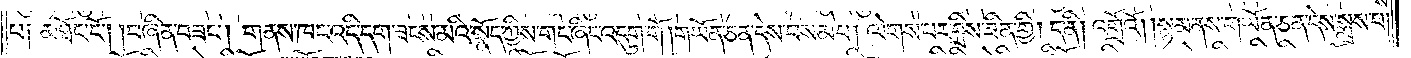པ༑ མཐོང་ངོ༌། །བཞིན་བཟང༌། གནས་ཁང་འདི་དག་ཟངས་མའི་སྣོད་ཀྱིས་གང་ཞིང་འདུག་གོ །གཡོན་ཅན་དེས་བསམ་པ། ལེགས་པར་བྲིས་ཟིན་གྱི། ད་ནི། འགྲོའོ། །སྙམ་ནས་གཡོན་ཅན་དེས་སྨྲས་པ།
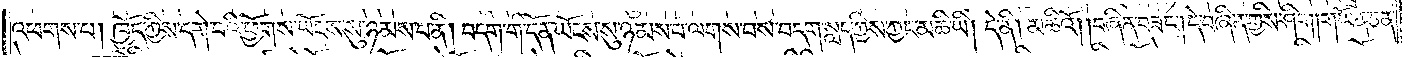འཕགས་པ། ཁྱོད་ཀྱིས་དགེ་བའི་ཕྱོགས་ཡོངས་སུ་ཉམས་པ་ནི། བདག་གི་དོན་ཡོངས་སུ་ཉམས་པ་ལགས་བས་བདག་སླད་ཀྱིས་ཀྱང་མཆི་ཡི། དེ་ནི། མཆིའོ། །བཞིན་བཟང༌། དེ་བཞིན་གྱིས་ཤིག།གཡོན་ཅན་
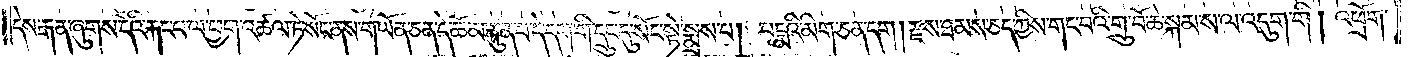དེས་རྒན་ཞུགས་དེའི་རྐང་པ་ལ་ཕྱག་འཚལ་ཏེ་སོང་ནས་གཡོན་ཅན་དེ་ཆོམ་རྐུན་པ་དེ་དག་གི་དྲུང་དུ་སོང་སྟེ་སྨྲས་པ། པདྨའི་མིག་ཅན་དག །རྫས་ཐམས་ཅད་ཀྱིས་གང་བའི་གྲུབ་བོ་ཆེ་སྐམ་ས་ལ་འདུག་གི། འཕྲོག་
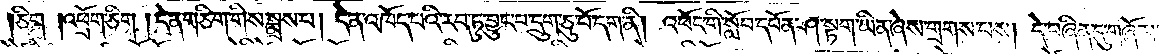ཅིག །འཕྲོག་ཅིག །དེ་ན་གཅིག་གིས་སྨྲས་པ། དེ་ན་འཁོད་པའི་རབ་ཏུ་བྱུང་བ་དྲུག་ཅུ་པོ་དག་ནི། འཕོང་གི་སློབ་དཔོན་ཤ་སྟག་ཡིན་ཞེས་གྲགས་པས། དེ་བཞིན་དུ་གཞོམ་
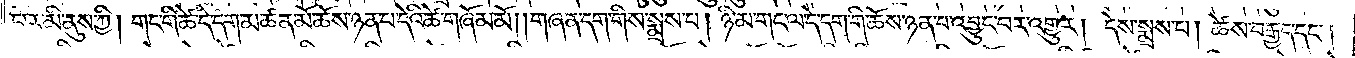པར་མི་ནུས་ཀྱི། གང་གི་ཚེ་དེ་དག་མཚན་མོ་ཆོས་ཉན་པ་དེའི་ཚེ་གཞོམ་མོ། །གཞན་དག་གིས་སྨྲས་པ། ཉི་མ་གང་ལ་དེ་དག་གི་ཆོས་ཉན་པ་འབྱུང་བར་འགྱུར། དེས་སྨྲས་པ། ཚེས་བརྒྱད་དང༌།
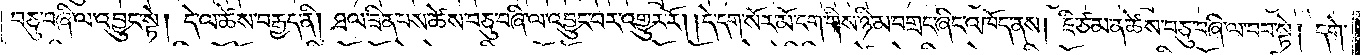བཅུ་བཞི་ལ་འབྱུང་སྟེ། དེ་ལ་ཚེས་བརྒྱད་ནི། ཐལ་ཟིན་པས་ཚེས་བཅུ་བཞི་ལ་འབྱུང་བར་འགྱུར་རོ། །དེ་དག་སོར་མོ་དག་གིས་ཉི་མ་བགྲང་ཞིང་འཁོད་ནས། ཇི་ཙམ་ན་ཚེས་བཅུ་བཞི་ལ་བབ་སྟེ། དགེ་
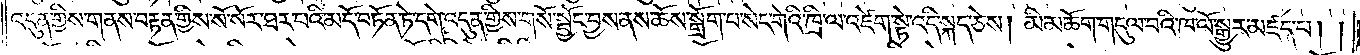འདུན་གྱིས་གནས་བརྟན་གྱིས་སོ་སོར་ཐར་པའི་མདོ་བཏོན་ཏེ་དགེ་འདུན་གྱིས་གསོ་སྦྱོང་བྱས་ནས་ཆོས་སྒྲོག་པ་སེང་གེའི་ཁྲི་ལ་འཛེག་སྟེ་འདི་སྐད་ཅེས། མི་མཆོག་གདུལ་བའི་ཁ་ལོ་སྒྱུར་མཛད་པ། །
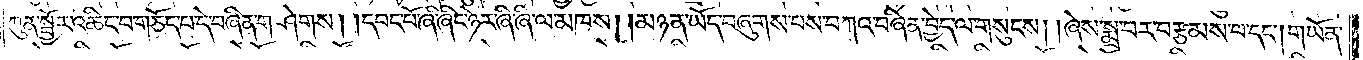ཀུན་སྦྱོར་འཆིང་བ་གཅོད་པ་དེ་བཞིན་གཤེགས། །དབང་པོ་ཞི་ཞིང་ཉེར་ཞི་ཞི་ལ་མཁས། །མཉན་ཡོད་བཞུགས་པས་བཀའ་བཞིན་བྱེད་ལ་གསུངས། །ཞེས་སྨྲ་བར་བརྩམས་པ་དང༌། གཡོན་
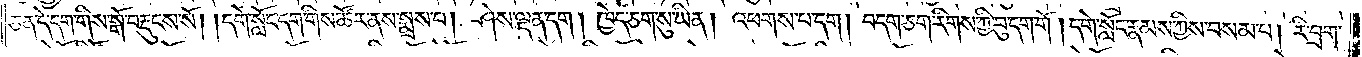ཅན་དེ་དག་གིས་སྒོ་བརྡུངས་སོ། །དགེ་སློང་དག་གིས་ཚོར་ནས་སྨྲས་པ། ཤེས་ལྡན་དག །ཁྱེད་ཅག་སུ་ཡིན། འཕགས་པ་དག། བདག་ཅག་རིགས་ཀྱི་བུ་དག་གོ། དགེ་སློང་རྣམས་ཀྱིས་བསམ་པ། རི་བྲག་
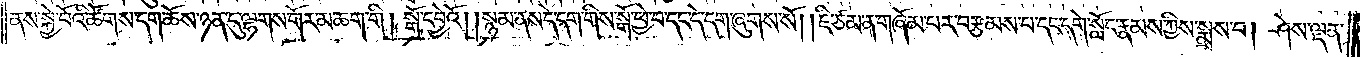ནས་སྐྱེ་བོའི་ཚོགས་དག་ཆོས་ཉན་དུ་ལྷགས་གོར་མ་ཆག་གི། སྒོ་དབྱེའོ། །སྙམ་ནས་དེ་དག་གིས་སྒོ་ཕྱེ་བ་དང་དེ་དག་ཞུགས་སོ། །ཇི་ཙམ་ན་གཞོམ་པར་བརྩམས་པ་དང་དགེ་སློང་རྣམས་ཀྱིས་སྨྲས་པ། ཤེས་ལྡན་
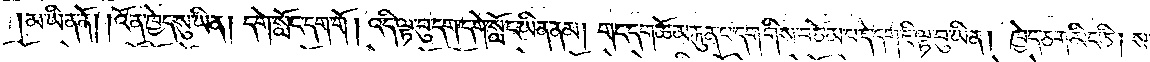མ་ཡིན་ནོ། །འོ་ན་ཁྱེད་སུ་ཡིན། དགེ་སློང་དག་གོ། འདི་ལྟ་བུ་དག་དགེ་སློང་ཡིན་ནམ། གང་དག་ཆོམ་རྐུན་པ་དག་གིས་བཅོམ་པ་དེ་དག་ཇི་ལྟ་བུ་ཡིན། ཁྱེད་ཅག་མིང་ཅི། སངས་
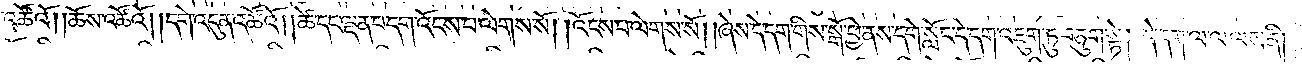རྒྱས་འཚོའོ། །ཆོས་འཚོའོ། །དགེ་འདུན་འཚོའོ། །ཚེ་དང་ལྡན་པ་དག་འོངས་པ་ལེགས་སོ། །འོངས་པ་ལེགས་སོ། །ཞེས་དེ་དག་གིས་སྒོ་ཕྱེ་ནས་དགེ་སློང་དེ་དག་འཇུག་ཏུ་བཅུག་སྟེ། དེ་དག་ལ་ལ་ལས་ནི།
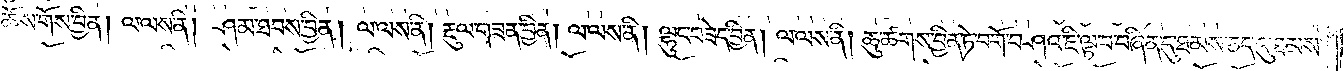ཆོས་གོས་བྱིན། ལ་ལས་ནི། ཤམ་ཐབས་བྱིན། ལ་ལས་ནི། རྡུལ་གཟན་བྱིན། ལ་ལས་ནི། ལྷུང་བཟེད་བྱིན། ལ་ལས་ནི། ཆུ་ཚགས་བྱིན་ཏེ་བགོ་བཤའ་ཇི་ལྟ་བ་བཞིན་དུ་ཐམས་ཅད་དུ་ཐམས་
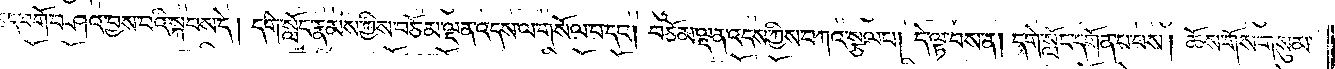ཅད་བགོ་བཤའ་བྱས་པའི་སྐབས་དེ། དགེ་སློང་རྣམས་ཀྱིས་བཅོམ་ལྡན་འདས་ལ་གསོལ་བ་དང༌། བཅོམ་ལྡན་འདས་ཀྱིས་བཀའ་སྩལ་པ། དེ་ལྟ་བས་ན། དགེ་སློང་དགོན་པ་པས། ཆོས་གོས་གསུམ་
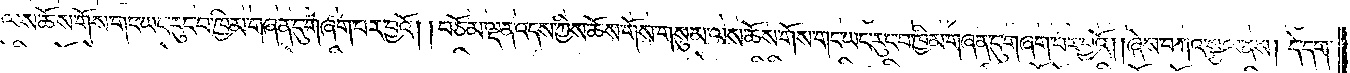ལས་ཆོས་གོས་གང་ཡང་རུང་བ་ཁྱིམ་གཞན་དུ་གཞག་པར་བྱའོ། །བཅོམ་ལྡན་འདས་ཀྱིས་ཆོས་གོས་གསུམ་ལས་ཆོས་གོས་གང་ཡང་རུང་བ་ཁྱིམ་གཞན་དུ་གཞག་པར་བྱའོ། །ཞེས་བཀའ་སྩལ་ནས། དེ་དག་
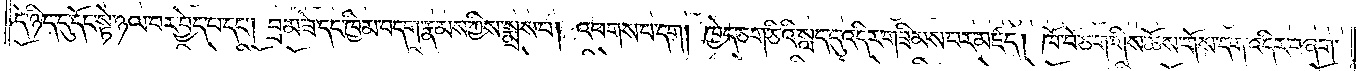དེ་ཉིད་དུ་དོང་སྟེ་ཉལ་བར་བྱེད་པ་དང༌། བྲམ་ཟེ་དང་ཁྱིམ་བདག་རྣམས་ཀྱིས་སྨྲས་པ། འཕགས་པ་དག། ཁྱེད་ཅག་ཅིའི་སླད་དུ་འདིར་གཟིམས་པར་མཛད། ཁོ་བོ་ཅག་གིས་ཆོས་གོས་དག་འདིར་བཞག་
